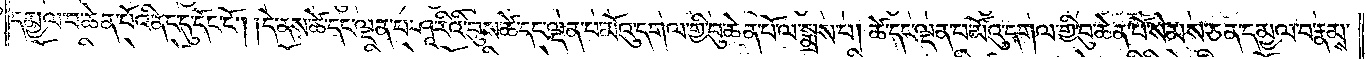དམྱལ་བ་ཆེན་པོའི་ནང་དུ་དོང་ངོ༌། །དེ་ནས་ཚེ་དང་ལྡན་པ་ཤཱ་རིའི་བུས་ཚེ་དང་ལྡན་པ་མོའུ་དགལ་གྱི་བུ་ཆེན་པོ་ལ་སྨྲས་པ། ཚེ་དང་ལྡན་པ་མོའུ་དགལ་གྱི་བུ་ཆེན་པོ་སེམས་ཅན་དམྱལ་བ་རྣམས་
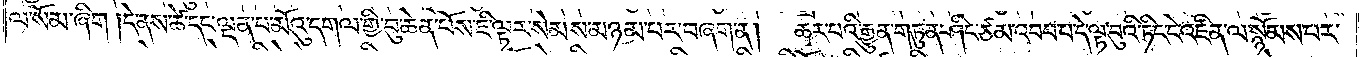ལ་སོམ་ཞིག །དེ་ནས་ཚེ་དང་ལྡན་པ་མོའུ་དགལ་གྱི་བུ་ཆེན་པོས་ཇི་ལྟར་སེམས་མཉམ་པར་བཞག་ན།<gap>ཆར་པའི་རྒྱུན་གཏུན་ཤིང་ཙམ་འབབ་པ་དེ་ལྟ་བུའི་ཏིང་ངེ་འཛིན་ལ་སྙོམས་པར་
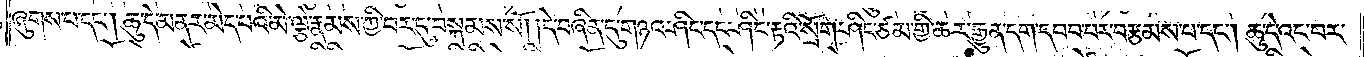ཞུགས་པ་དང༌། ཆུ་དེ་མནར་མེད་པའི་མེ་ལྕེ་རྣམས་ཀྱི་བར་དུ་བསྐམས་སོ། །དེ་བཞིན་དུ་གཉའ་ཤིང་དང་ཤིང་རྟའི་སྲོག་ཤིང་ཙམ་གྱི་ཆར་རྒྱུན་དག་དབབ་པར་བརྩམས་པ་དང༌། ཆུ་དེ་འང་བར་
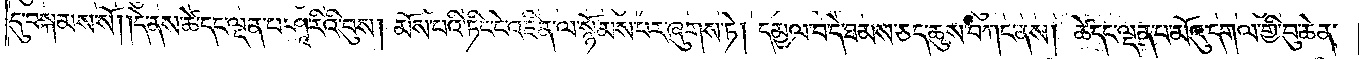དུ་བསྐམས་སོ། །དེ་ནས་ཚེ་དང་ལྡན་པ་ཤཱ་རིའི་བུས། མོས་པའི་ཏིང་ངེ་འཛིན་ལ་སྙོམས་པར་ཞུགས་ཏེ། དམྱལ་བ་དེ་ཐམས་ཅད་ཆུས་བཀང་ནས། ཚེ་དང་ལྡན་པ་མོའུ་དགལ་གྱི་བུ་ཆེན་
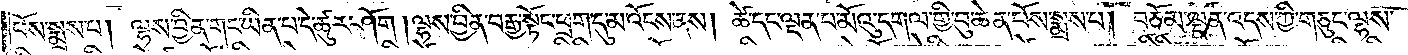པོས་སྨྲས་པ། ལྷས་བྱིན་གང་ཡིན་པ་དེ་ཚུར་ཤོག །ལྷས་བྱིན་བརྒྱ་སྟོང་ཕྲག་དུ་མ་འོངས་ནས། ཚེ་དང་ལྡན་པ་མོའུ་དགལ་གྱི་བུ་ཆེན་པོས་སྨྲས་པ། བཅོམ་ལྡན་འདས་ཀྱི་གཅུང་ལྷས་
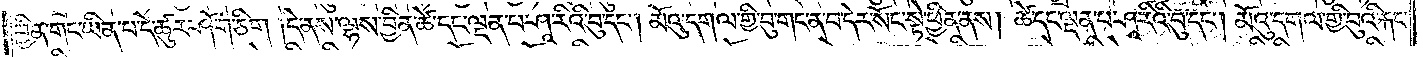བྱིན་གང་ཡིན་པ་དེ་ཚུར་ཤོག་ཅིག །དེ་ནས་ལྷས་བྱིན་ཚེ་དང་ལྡན་པ་ཤཱ་རིའི་བུ་དང༌། མོའུ་དགལ་གྱི་བུ་གང་ན་བ་དེར་སོང་སྟེ་ཕྱིན་ནས། ཚེ་དང་ལྡན་པ་ཤཱ་རིའི་བུ་དང༌། མོའུ་དགལ་གྱི་བུའི་རྐང་
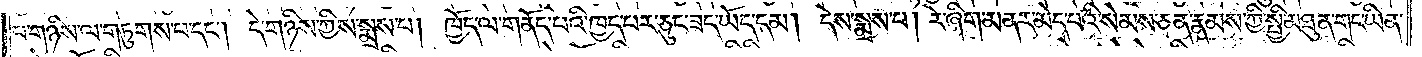པ་གཉིས་ལ་གཏུགས་པ་དང༌། དེ་གཉིས་ཀྱིས་སྨྲས་པ། ཁྱོད་ལ་གནོད་པའི་ཁྱད་པར་ཅུང་ཟད་ཡོད་དམ། དེས་སྨྲས་པ། རེ་ཞིག་མནར་མེད་པའི་སེམས་ཅན་རྣམས་ཀྱི་སྤྱི་མཐུན་གང་ཡིན་
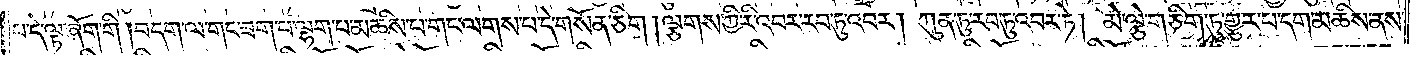པ་དེ་ལྟ་ཞོག་གི །བདག་ལ་གང་ཟག་པ་ལྷག་པ་མཆིས་པ་གང་ལགས་པ་དེ་གསོན་ཅིག །ལྕགས་ཀྱི་རི་འབར་རབ་ཏུ་འབར། ཀུན་ཏུ་རབ་ཏུ་འབར་ཏེ། མེ་ལྕེ་གཅིག་ཏུ་གྱུར་པ་དག་མཆིས་ནས་
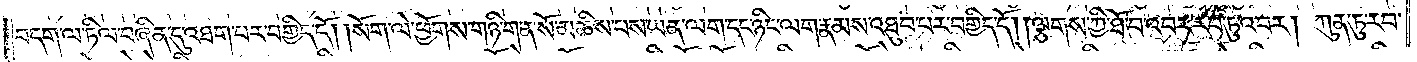བདག་ལ་ཏིལ་བཞིན་དུ་འཐག་པར་བགྱིད་དོ། །སོག་ལེ་ཕྱོགས་གཉི་ག་ན་སོ་མཆིས་པས་ཡན་ལག་དང་ཉིང་ལག་རྣམས་འཐུབ་པར་བགྱིད་དོ། །ལྕགས་ཀྱི་ཐོ་བ་འབར་རབ་ཏུ་འབར། ཀུན་ཏུ་རབ་
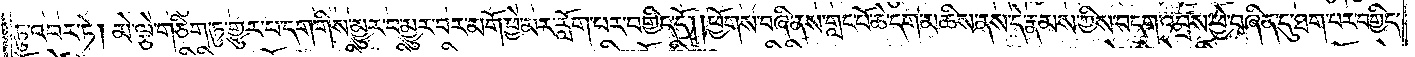ཏུ་འབར་ཏེ། མེ་ལྕེ་གཅིག་ཏུ་གྱུར་པ་དག་གིས་མྱུར་བ་མྱུར་བར་མགོ་ཕྱེ་མར་རློག་པར་བགྱིད་དོ། །ཕྱོགས་བཞི་ནས་གླང་པོ་ཆེ་དག་མཆིས་ནས་དེ་རྣམས་ཀྱིས་བདག་འབྲས་ཕྱེ་བཞིན་དུ་ཐག་པར་བགྱིད་
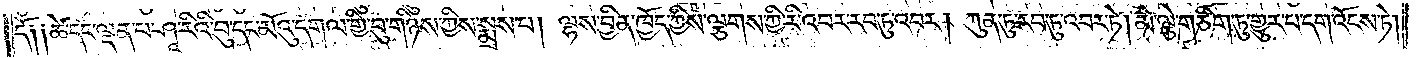དོ༑ ༑ཚེ་དང་ལྡན་པ་ཤཱ་རིའི་བུ་དང་མོའུ་དགལ་གྱི་བུ་གཉིས་ཀྱིས་སྨྲས་པ། ལྷས་བྱིན་ཁྱོད་ཀྱིས་ལྕགས་ཀྱི་རི་འབར་རབ་ཏུ་འབར། ཀུན་ཏུ་རབ་ཏུ་འབར་ཏེ། མེ་ལྕེ་གཅིག་ཏུ་གྱུར་པ་དག་འོངས་ཏེ།
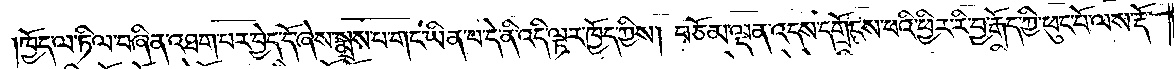།ཁྱོད་ལ་ཏིལ་བཞིན་འཐག་པར་བྱེད་དོ་ཞེས་སྨྲས་པ་གང་ཡིན་པ་དེ་ནི་འདི་ལྟར་ཁྱོད་ཀྱིས། བཅོམ་ལྡན་འདས་དགྲོངས་པའི་ཕྱིར་རི་བྱ་རྒོད་ཀྱི་ཕུང་པོ་ལས་རྡོ་
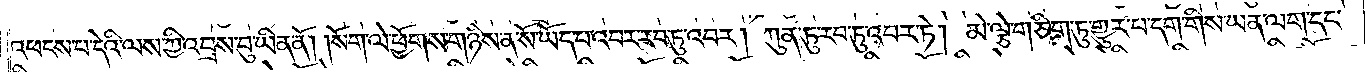འཕངས་པ་དེའི་ལས་ཀྱི་འབྲས་བུ་ཡིན་ནོ། །སོག་ལེ་ཕྱོགས་གཉིས་ན་སོ་ཡོད་པ་འབར་རབ་ཏུ་འབར། ཀུན་ཏུ་རབ་ཏུ་འབར་ཏེ། མེ་ལྕེ་གཅིག་ཏུ་གྱུར་པ་དག་གིས་ཡན་ལག་དང་
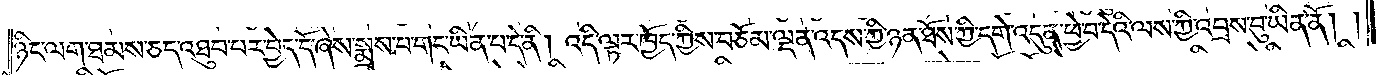ཉིང་ལག་ཐམས་ཅད་འཐུབ་པར་བྱེད་དོ་ཞེས་སྨྲས་པ་གང་ཡིན་པ་དེ་ནི། འདི་ལྟར་ཁྱོད་ཀྱིས་བཅོམ་ལྡན་འདས་ཀྱི་ཉན་ཐོས་ཀྱི་དགེ་འདུན་ཕྱེ་བ་དེའི་ལས་ཀྱི་འབྲས་བུ་ཡིན་ནོ། །
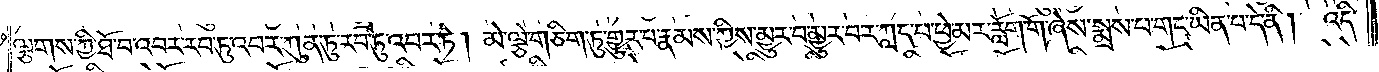ལྕགས་ཀྱི་ཐོ་བ་འབར་རབ་ཏུ་འབར་ཀུན་ཏུ་རབ་ཏུ་འབར་ཏེ། མེ་ལྕེ་གཅིག་ཏུ་གྱུར་པ་རྣམས་ཀྱིས་མྱུར་བ་མྱུར་བར་ཀླད་པ་ཕྱེ་མར་རློག་གོ་ཞེས་སྨྲས་པ་གང་ཡིན་པ་དེ་ནི། འདི་
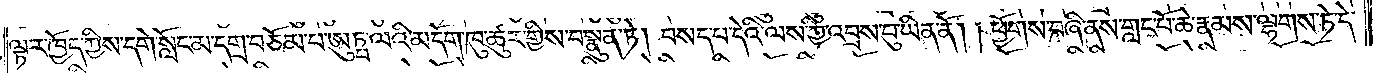ལྟར་ཁྱོད་ཀྱིས་དགེ་སློང་མ་དགྲ་བཅོམ་པ་ཨུཏྤ་ལའི་མདོག་ཁུ་ཚུར་གྱིས་བསྣུན་ཏེ། བསད་པ་དེའི་ལས་ཀྱི་འབྲས་བུ་ཡིན་ནོ། །ཕྱོགས་བཞི་ནས་གླང་པོ་ཆེ་རྣམས་ལྷགས་ཏེ་དེ་
